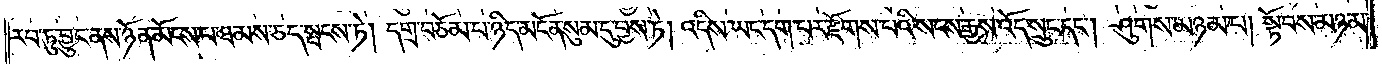རབ་ཏུ་བྱུང་ནས་ཉོན་མོངས་པ་ཐམས་ཅད་སྤངས་ཏེ། དགྲ་བཅོམ་པ་ཉིད་མངོན་སུམ་དུ་བྱས་ཏེ། འདིས་ཡང་དག་པར་རྫོགས་པའི་སངས་རྒྱས་འོད་སྲུང་དང༌། ཤུགས་མཉམ་པ། སྟོབས་མཉམ་
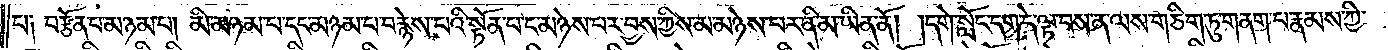པ༑ བརྩོན་པ་མཉམ་པ། མི་མཉམ་པ་དང་མཉམ་པ་བརྙེས་པའི་སྟོན་པ་ང་མཉེས་པར་བྱས་ཀྱིས་མ་མཉེས་པར་ནི་མ་ཡིན་ནོ། །དགེ་སློང་དག་དེ་ལྟ་བས་ན་ལས་གཅིག་ཏུ་གནག་པ་རྣམས་ཀྱི་
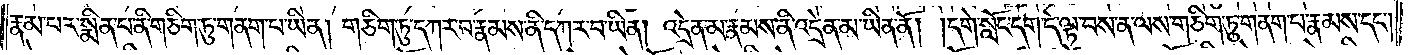རྣམ་པར་སྨིན་པ་ནི་གཅིག་ཏུ་གནག་པ་ཡིན། གཅིག་ཏུ་དཀར་བ་རྣམས་ནི་དཀར་བ་ཡིན། འདྲེན་མ་རྣམས་ནི་འདྲེན་མ་ཡིན་ནོ། །དགེ་སློང་དག་དེ་ལྟ་བས་ན་ལས་གཅིག་ཏུ་གནག་པ་རྣམས་དང༌།
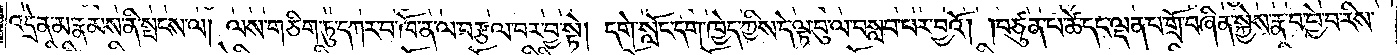འདྲེན་མ་རྣམས་ནི་སྤངས་ལ། ལས་གཅིག་ཏུ་དཀར་བ་ཁོ་ན་ལ་བརྩལ་བར་བྱ་སྟེ། དགེ་སློང་དག་ཁྱེད་ཀྱིས་དེ་ལྟ་བུ་ལ་བསླབ་པར་བྱའོ། །བཙུན་པ་ཚེ་དང་ལྡན་པ་གྲོ་བཞིན་སྐྱེས་རྣ་བ་བྱེ་བ་རིས་
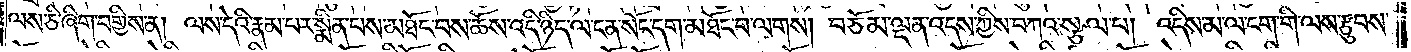ལས་ཅི་ཞིག་བགྱིས་ན། ལས་དེའི་རྣམ་པར་སྨིན་པས་མཐོང་བས་ཆོས་འདི་ཉིད་ལ་ངན་སོང་དག་མཐོང་བ་ལགས། བཅོམ་ལྡན་འདས་ཀྱིས་བཀའ་སྩལ་པ། འདིས་མ་ལ་ངག་གི་ལས་རྩུབས་
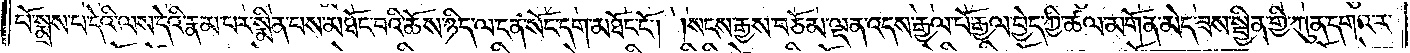པོ་སྨྲས་པ་དེའི་ལས་དེའི་རྣམ་པར་སྨིན་པས་མཐོང་བའི་ཆོས་ཉིད་ལ་ངན་སོང་དག་མཐོང་ངོ༌།    །སངས་རྒྱས་བཅོམ་ལྡན་འདས་རྒྱལ་པོ་རྒྱལ་བྱེད་ཀྱི་ཚལ་མགོན་མེད་ཟས་སྦྱིན་གྱི་ཀུན་དགའ་ར་
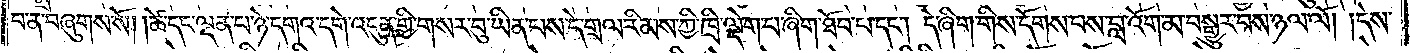བ་ན་བཞུགས་སོ། །ཚེ་དང་ལྡན་པ་ཉེ་དགའ་དགེ་འདུན་གྱི་གསར་བུ་ཡིན་པས་དེ་གྲལ་རིམས་ཀྱི་ཁྲི་ལྡེག་པ་ཞིག་ཐོབ་པ་དང༌། དེ་ཞིག་གིས་དོགས་པས་བླ་འོག་མ་བསྒྱུར་བས་ཉལ་ལོ། །དེས་
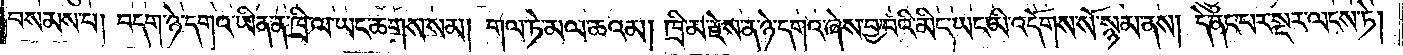བསམས་པ། བདག་ཉེ་དགའ་ཡིན་ན་ཁྲི་ལ་ཡང་ཆགས་སམ། གལ་ཏེ་མལ་ཆའམ། ཁྲི་མ་རྗེས་ན་ཉེ་དགའ་ཞེས་བྱ་བའི་མིང་ཡང་མི་འདོགས་སོ་སྙམ་ནས། དེ་ནང་པར་སྔར་ལངས་ཏེ།
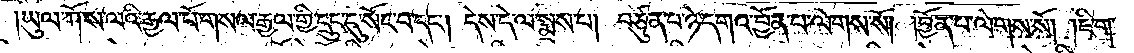ཡུལ་ཀོ་ས་ལའི་རྒྱལ་པོ་གསལ་རྒྱལ་གྱི་དྲུང་དུ་སོང་བ་དང༌། དེས་དེ་ལ་སྨྲས་པ། བཙུན་པ་ཉེ་དགའ་བྱོན་པ་ལེགས་སོ། །བྱོན་པ་ལེགས་སོ། །ཇི་ག་
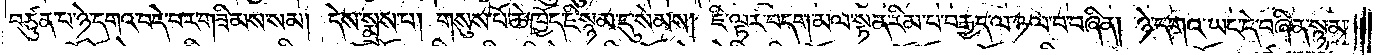བཙུན་པ་ཉེ་དགའ་བདེ་བར་གཟིམས་སམ། དེས་སྨྲས་པ། གསུས་པོ་ཆེ་ཁྱོད་ཇི་སྙམ་དུ་སེམས། ཇི་ལྟར་བདག་མལ་སྟན་རིམ་པ་བརྒྱད་ལ་ཉལ་བ་བཞིན། ཉེ་དགའ་ཡང་དེ་བཞིན་སྙམ་
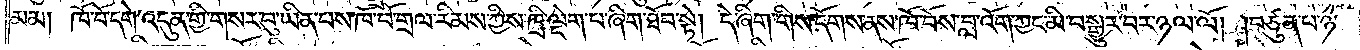མམ། ཁོ་བོ་དགེ་འདུན་གྱི་གསར་བུ་ཡིན་པས་ཁོ་བོ་གྲལ་རིམས་ཀྱིས་ཁྲི་ལྡེག་པ་ཞིག་ཐོབ་སྟེ། དེ་ཞིག་གིས་དོགས་ནས་ཁོ་བོས་བླ་འོག་ཀྱང་མི་བསྒྱུར་བར་ཉལ་ལོ། །བཙུན་པ་ཉེ་
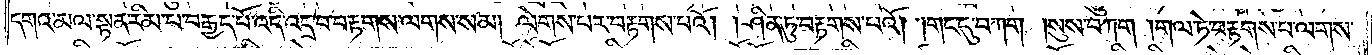དགའ་མལ་སྟན་རིམ་པ་བརྒྱད་པོ་འདི་འདྲ་བ་བརྟགས་ལགས་སམ། ལེགས་པར་བརྟགས་པའོ། །ཤིན་ཏུ་བརྟགས་པའོ། །གང་དུ་བཀག །སུས་བཀག །གལ་ཏེ་བརྟགས་པ་ལགས་
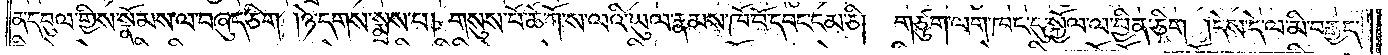ན་དབུལ་གྱིས་སྣོམས་ལ་བཞུད་ཅིག །ཉེ་དགས་སྨྲས་པ། གསུས་པོ་ཆེ་ཀོ་ས་ལའི་ཡུལ་རྣམས་ཁོ་བོ་དབང་ངམ་ཅི། གཙུག་ལག་ཁང་དུ་སྐྱོལ་ལ་བྱིན་ཅིག །དེས་དེ་ལ་མི་བརྒྱད་
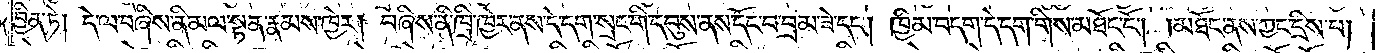བྱིན་ཏེ། དེ་ལ་བཞིས་ནི་མལ་སྟན་རྣམས་ཁྱེར། བཞིས་ནི་ཁྲི་ཁྱེར་ནས་དེ་དག་སྲང་གི་དབུས་ནས་དོང་བ་བྲམ་ཟེ་དང༌། ཁྱིམ་བདག་དེ་དག་གིས་མཐོང་ངོ༌། །མཐོང་ནས་ཀྱང་དྲིས་པ།
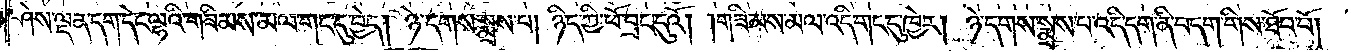ཤེས་ལྡན་དག་དེང་ལྷའི་གཟིམས་མལ་གང་དུ་བྱེད། ཉེ་དགས་སྨྲས་པ། ཉིད་ཀྱི་ཕོ་བྲང་དུའོ། །གཟིམས་མལ་འདི་གང་དུ་ཁྱེར། ཉེ་དགས་སྨྲས་པ་འདི་དག་ནི་བདག་གིས་ཐོབ་བོ། །
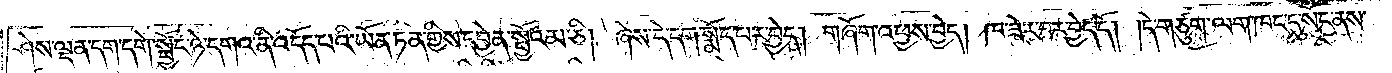ཤེས་ལྡན་དག་དགེ་སྦྱོང་ཉེ་དགའ་ནི་འདོད་པའི་ཡོན་ཏན་གྱིས་དབྱེན་སྤྱོ་འམ་ཅི། ཞེས་དེ་དག་སྨོད་པར་བྱེད། གཞོག་འཕྱས་བྱེད། ཁ་ཟེར་བར་བྱེད་དོ། །དེ་གཙུག་ལག་ཁང་དུ་སོང་ནས་
